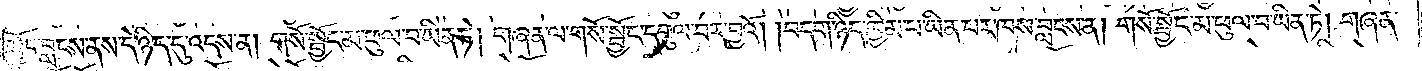སྦྱོང་བླངས་ནས་དེ་ཉིད་དུ་འདས་ན། གསོ་སྦྱོང་མ་ཕུལ་བ་ཡིན་ཏེ། གཞན་ལ་གསོ་སྦྱོང་དབུལ་བར་བྱའོ། །བདག་ཉིད་ཁྱིམ་པ་ཡིན་པར་ཁས་བླངས་ན། གསོ་སྦྱོང་མ་ཕུལ་བ་ཡིན་ཏེ། གཞན་
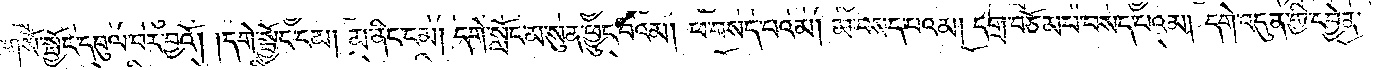ལ་གསོ་སྦྱོང་དབུལ་བར་བྱའོ། །དགེ་སྦྱོང་ངམ། མ་ནིང་ངམ། དགེ་སློང་མ་སུན་ཕྱུང་བའམ། ཕ་བསད་པའམ། མ་བསད་པའམ། དགྲ་བཅོམ་པ་བསད་པའམ། དགེ་འདུན་གྱི་དབྱེན་
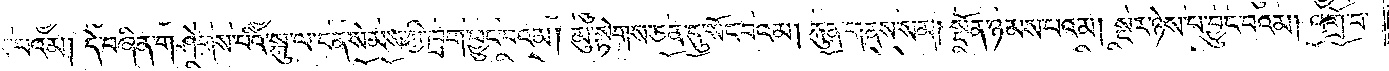པའམ། དེ་བཞིན་གཤེགས་པའི་སྐུ་ལ་ངན་སེམས་ཀྱི་ཁྲག་ཕྱུང་བའམ། མུ་སྟེགས་ཅན་དུ་སོང་བའམ། རྐུན་གནས་སམ། སྔོན་ཉམས་པའམ། སྔར་ཉེས་པ་བྱུང་བའམ། འགྲོ་བ་
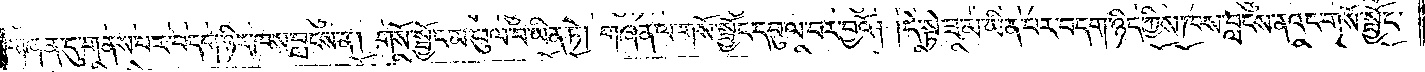གཞན་དུ་གནས་པར་བདག་ཉིད་ཁས་བླངས་ན། གསོ་སྦྱོང་མ་ཕུལ་བ་ཡིན་ཏེ། གཞན་ལ་གསོ་སྦྱོང་དབུལ་བར་བྱའོ། །དེ་སྟེ་ཟ་མ་ཡིན་པར་བདག་ཉིད་ཀྱིས་ཁས་བླངས་ནའང་གསོ་སྦྱོང་
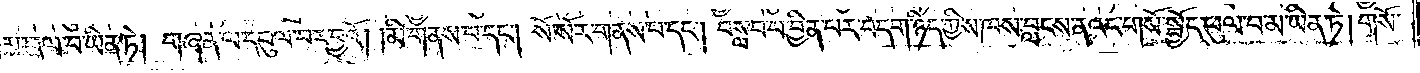མ་ཕུལ་བ་ཡིན་ཏེ། གཞན་ལ་དབུལ་བར་བྱའོ། །མི་གནས་པ་དང༌། སོ་སོར་གནས་པ་དང༌། བསླབ་པ་བྱིན་པར་བདག་ཉིད་ཀྱིས་ཁས་བླངས་ནའང་གསོ་སྦྱོང་ཕུལ་བ་མ་ཡིན་ཏེ། གསོ་
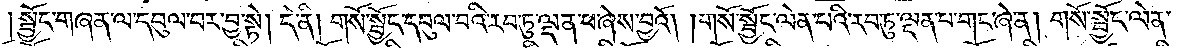སྦྱོང་གཞན་ལ་དབུལ་བར་བྱ་སྟེ། དེ་ནི། གསོ་སྦྱོང་དབུལ་བའི་རབ་ཏུ་ལྡན་པ་ཞེས་བྱའོ། །གསོ་སྦྱོང་ལེན་པའི་རབ་ཏུ་ལྡན་པ་གང་ཞེ་ན། གསོ་སྦྱོང་ལེན་
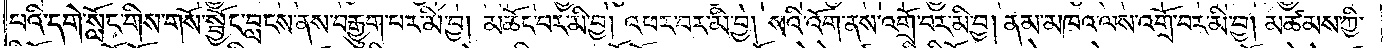པའི་དགེ་སློང་གིས་གསོ་སྦྱོང་བླངས་ནས་བརྒྱུག་པར་མི་བྱ། མཆོང་བར་མི་བྱ། འཕར་བར་མི་བྱ། སའི་འོག་ནས་འགྲོ་བར་མི་བྱ། ནམ་མཁའ་ལས་འགྲོ་བར་མི་བྱ། མཚམས་ཀྱི་
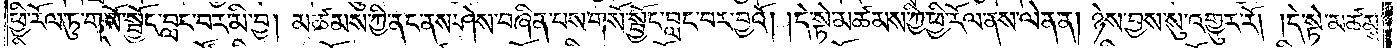ཕྱི་རོལ་ཏུ་གསོ་སྦྱོང་བླང་བར་མི་བྱ། མཚམས་ཀྱི་ནང་ནས་ཤེས་བཞིན་པས་གསོ་སྦྱོང་བླང་བར་བྱའོ། །དེ་སྟེ་མཚམས་ཀྱི་ཕྱི་རོལ་ནས་ལེན་ན། ཉེས་བྱས་སུ་འགྱུར་རོ། །དེ་སྟེ་མཚམས་
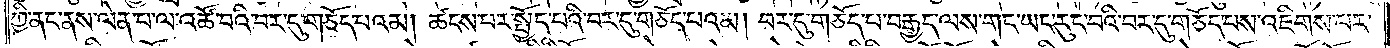ཀྱི་ནང་ནས་ལེན་པ་ལ་འཚོ་བའི་བར་དུ་གཅོད་པའམ། ཚངས་པར་སྤྱོད་པའི་བར་དུ་གཅོད་པའམ། བར་དུ་གཅོད་པ་བརྒྱད་ལས་གང་ཡང་རུང་བའི་བར་དུ་གཅོད་པས་འཇིགས་པར་
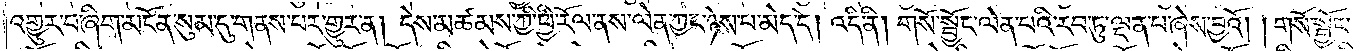འགྱུར་བ་ཞིག་མངོན་སུམ་དུ་གནས་པར་གྱུར་ན། དེས་མཚམས་ཀྱི་ཕྱི་རོལ་ནས་ལེན་ཀྱང་ཉེས་པ་མེད་དེ། འདི་ནི། གསོ་སྦྱོང་ལེན་པའི་རབ་ཏུ་ལྡན་པ་ཞེས་བྱའོ། །གསོ་སྦྱོང་
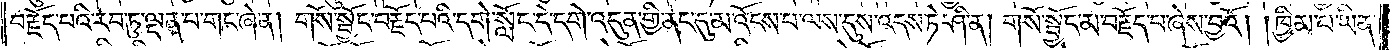བརྗོད་པའི་རབ་ཏུ་ལྡན་པ་གང་ཞེ་ན། གསོ་སྦྱོང་བརྗོད་པའི་དགེ་སློང་དེ་དགེ་འདུན་གྱི་ནང་དུ་མ་འོངས་པ་ལས་དུས་འདས་ཏེ་ཤིན། གསོ་སྦྱོང་མ་བརྗོད་པ་ཞེས་བྱའོ། །ཁྱིམ་པ་ཡིན་
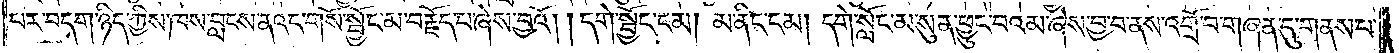པར་བདག་ཉིད་ཀྱིས་ཁས་བླངས་ནའང་གསོ་སྦྱོང་མ་བརྗོད་པ་ཞེས་བྱའོ། །དགེ་སྦྱོང་ངམ། མ་ནིང་ངམ། དགེ་སློང་མ་སུན་ཕྱུང་བའམ་ཞེས་བྱ་བ་ནས་འགྲོ་བ་གཞན་དུ་གནས་པ་
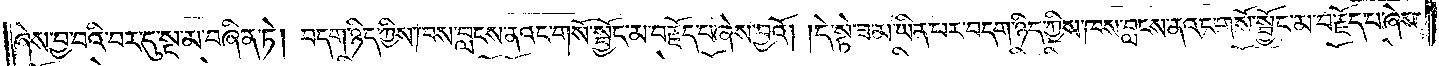ཞེས་བྱ་བའི་བར་དུ་སྔ་མ་བཞིན་ཏེ། བདག་ཉིད་ཀྱིས་ཁས་བླངས་ནའང་གསོ་སྦྱོང་མ་བརྗོད་པ་ཞེས་བྱའོ། །དེ་སྟེ་ཟ་མ་ཡིན་པར་བདག་ཉིད་ཀྱིས་ཁས་བླངས་ནའང་གསོ་སྦྱོང་མ་བརྗོད་པ་ཞེས་
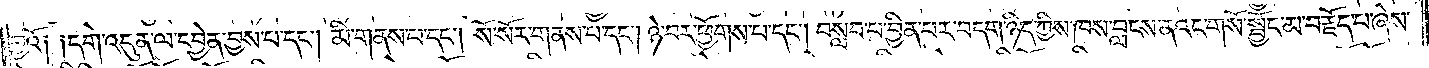བྱའོ༑ ༑དགེ་འདུན་ལ་དབྱེན་བྱས་པ་དང༌། མི་གནས་པ་དང༌། སོ་སོར་གནས་པ་དང༌། ཉེ་བར་ཕྱོགས་པ་དང༌། བསླབ་པ་བྱིན་པར་བདག་ཉིད་ཀྱིས་ཁས་བླངས་ནའང་གསོ་སྦྱོང་མ་བརྗོད་པ་ཞེས་
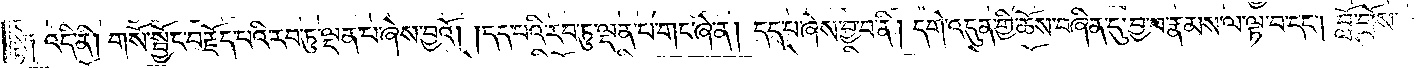སྟེ༑ འདི་ནི། གསོ་སྦྱོང་བརྗོད་པའི་རབ་ཏུ་ལྡན་པ་ཞེས་བྱའོ། །དད་པའི་རབ་ཏུ་ལྡན་པ་གང་ཞེ་ན། དད་པ་ཞེས་བྱ་བ་ནི། དགེ་འདུན་གྱི་ཆོས་བཞིན་དུ་བྱ་བ་རྣམས་ལ་ལྟ་བ་དང༌། བློ་གྲོས་
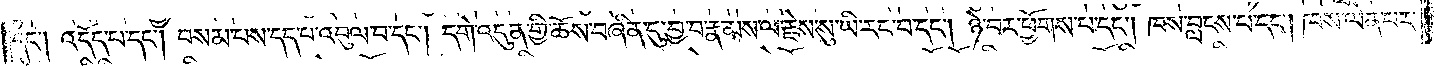དང༌། འདོད་པ་དང༌། བསམ་པས་དད་པ་འབུལ་བ་དང༌། དགེ་འདུན་གྱི་ཆོས་བཞིན་དུ་བྱ་བ་རྣམས་ལ་རྗེས་སུ་ཡི་རང་བ་དང༌། ཉེ་བར་ཕྱོགས་པ་དང༌། ཁས་བླངས་པ་དང༌། ཁས་ལེན་པར་
